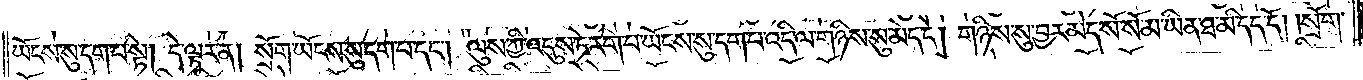ཡོངས་སུ་དག་པ་སྟེ། དེ་ལྟར་ན། སྲོག་ཡོངས་སུ་དག་པ་དང༌། ལུས་ཀྱི་འདུས་ཏེ་རེག་པ་ཡོངས་སུ་དག་པ་འདི་ལ་གཉིས་སུ་མེད་དེ། གཉིས་སུ་བྱར་མེད་སོ་སོ་མ་ཡིན་ཐ་མི་དད་དོ། །སྲོག་
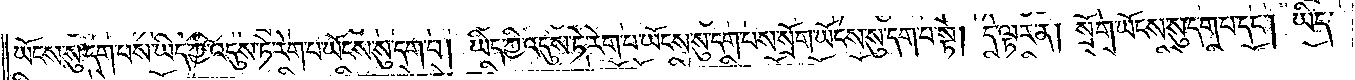ཡོངས་སུ་དག་པས་ཡིད་ཀྱི་འདུས་ཏེ་རེག་པ་ཡོངས་སུ་དག་པ། ཡིད་ཀྱི་འདུས་ཏེ་རེག་པ་ཡོངས་སུ་དག་པས་སྲོག་ཡོངས་སུ་དག་པ་སྟེ། དེ་ལྟར་ན། སྲོག་ཡོངས་སུ་དག་པ་དང༌། ཡིད་
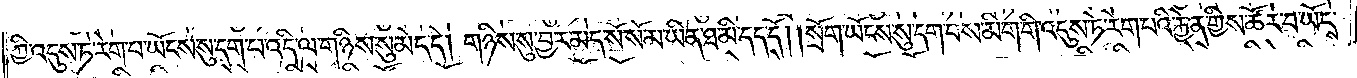ཀྱི་འདུས་ཏེ་རེག་པ་ཡོངས་སུ་དག་པ་འདི་ལ་གཉིས་སུ་མེད་དེ། གཉིས་སུ་བྱར་མེད་སོ་སོ་མ་ཡིན་ཐ་མི་དད་དོ། །སྲོག་ཡོངས་སུ་དག་པས་མིག་གི་འདུས་ཏེ་རེག་པའི་རྐྱེན་གྱིས་ཚོར་བ་ཡོངས་
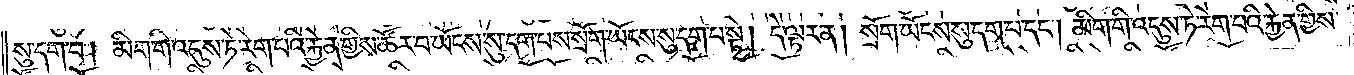སུ་དག་པ། མིག་གི་འདུས་ཏེ་རེག་པའི་རྐྱེན་གྱིས་ཚོར་བ་ཡོངས་སུ་དག་པས་སྲོག་ཡོངས་སུ་དག་པ་སྟེ། དེ་ལྟར་ན། སྲོག་ཡོངས་སུ་དག་པ་དང༌། མིག་གི་འདུས་ཏེ་རེག་པའི་རྐྱེན་གྱིས་
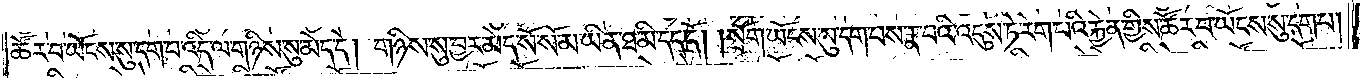ཚོར་བ་ཡོངས་སུ་དག་པ་འདི་ལ་གཉིས་སུ་མེད་དེ། གཉིས་སུ་བྱར་མེད་སོ་སོ་མ་ཡིན་ཐ་མི་དད་དོ། །སྲོག་ཡོངས་སུ་དག་པས་རྣ་བའི་འདུས་ཏེ་རེག་པའི་རྐྱེན་གྱིས་ཚོར་བ་ཡོངས་སུ་དག་པ།
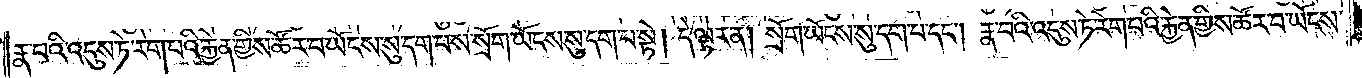རྣ་བའི་འདུས་ཏེ་རེག་པའི་རྐྱེན་གྱིས་ཚོར་བ་ཡོངས་སུ་དག་པས་སྲོག་ཡོངས་སུ་དག་པ་སྟེ། དེ་ལྟར་ན། སྲོག་ཡོངས་སུ་དག་པ་དང༌། རྣ་བའི་འདུས་ཏེ་རེག་པའི་རྐྱེན་གྱིས་ཚོར་བ་ཡོངས་
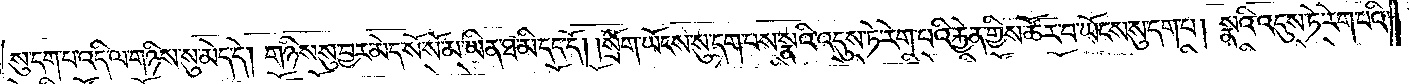སུ་དག་པ་འདི་ལ་གཉིས་སུ་མེད་དེ། གཉིས་སུ་བྱར་མེད་སོ་སོ་མ་ཡིན་ཐ་མི་དད་དོ། །སྲོག་ཡོངས་སུ་དག་པས་སྣའི་འདུས་ཏེ་རེག་པའི་རྐྱེན་གྱིས་ཚོར་བ་ཡོངས་སུ་དག་པ། སྣའི་འདུས་ཏེ་རེག་པའི་
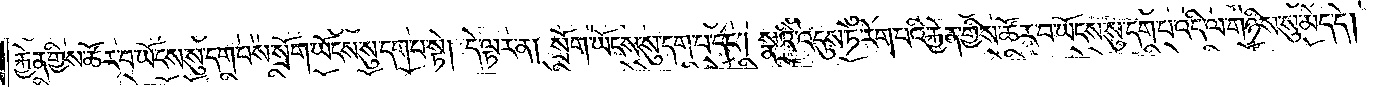རྐྱེན་གྱིས་ཚོར་བ་ཡོངས་སུ་དག་པས་སྲོག་ཡོངས་སུ་དག་པ་སྟེ། དེ་ལྟར་ན། སྲོག་ཡོངས་སུ་དག་པ་དང༌། སྣའི་འདུས་ཏེ་རེག་པའི་རྐྱེན་གྱིས་ཚོར་བ་ཡོངས་སུ་དག་པ་འདི་ལ་གཉིས་སུ་མེད་དེ།
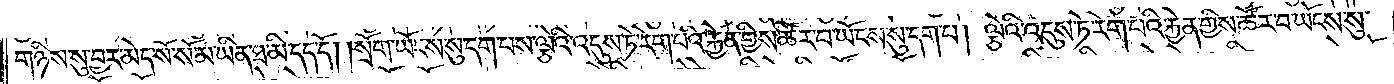གཉིས་སུ་བྱར་མེད་སོ་སོ་མ་ཡིན་ཐ་མི་དད་དོ། །སྲོག་ཡོངས་སུ་དག་པས་ལྕེའི་འདུས་ཏེ་རེག་པའི་རྐྱེན་གྱིས་ཚོར་བ་ཡོངས་སུ་དག་པ། ལྕེའི་འདུས་ཏེ་རེག་པའི་རྐྱེན་གྱིས་ཚོར་བ་ཡོངས་སུ་
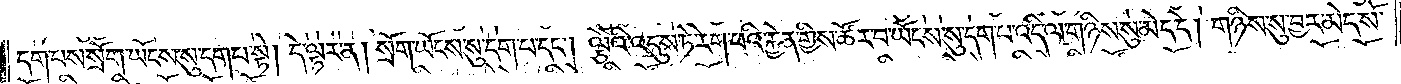དག་པས་སྲོག་ཡོངས་སུ་དག་པ་སྟེ། དེ་ལྟར་ན། སྲོག་ཡོངས་སུ་དག་པ་དང༌། ལྕེའི་འདུས་ཏེ་རེག་པའི་རྐྱེན་གྱིས་ཚོར་བ་ཡོངས་སུ་དག་པ་འདི་ལ་གཉིས་སུ་མེད་དེ། གཉིས་སུ་བྱར་མེད་སོ་
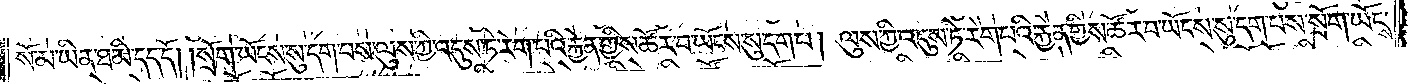སོ་མ་ཡིན་ཐ་མི་དད་དོ། །སྲོག་ཡོངས་སུ་དག་པས་ལུས་ཀྱི་འདུས་ཏེ་རེག་པའི་རྐྱེན་གྱིས་ཚོར་བ་ཡོངས་སུ་དག་པ། ལུས་ཀྱི་འདུས་ཏེ་རེག་པའི་རྐྱེན་གྱིས་ཚོར་བ་ཡོངས་སུ་དག་པས་སྲོག་ཡོངས་
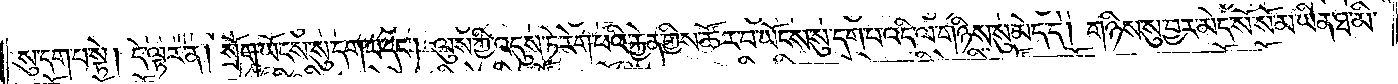སུ་དག་པ་སྟེ། དེ་ལྟར་ན། སྲོག་ཡོངས་སུ་དག་པ་དང༌། ལུས་ཀྱི་འདུས་ཏེ་རེག་པའི་རྐྱེན་གྱིས་ཚོར་བ་ཡོངས་སུ་དག་པ་འདི་ལ་གཉིས་སུ་མེད་དེ། གཉིས་སུ་བྱར་མེད་སོ་སོ་མ་ཡིན་ཐ་མི་
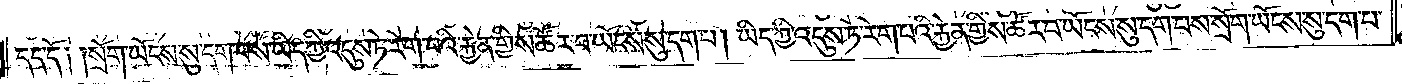དད་དོ། །སྲོག་ཡོངས་སུ་དག་པས་ཡིད་ཀྱི་འདུས་ཏེ་རེག་པའི་རྐྱེན་གྱིས་ཚོར་བ་ཡོངས་སུ་དག་པ། ཡིད་ཀྱི་འདུས་ཏེ་རེག་པའི་རྐྱེན་གྱིས་ཚོར་བ་ཡོངས་སུ་དག་པས་སྲོག་ཡོངས་སུ་དག་པ་
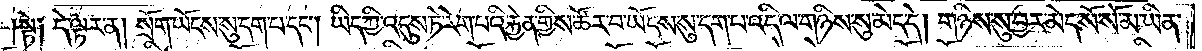སྟེ༑ དེ་ལྟར་ན། སྲོག་ཡོངས་སུ་དག་པ་དང༌། ཡིད་ཀྱི་འདུས་ཏེ་རེག་པའི་རྐྱེན་གྱིས་ཚོར་བ་ཡོངས་སུ་དག་པ་འདི་ལ་གཉིས་སུ་མེད་དེ། གཉིས་སུ་བྱར་མེད་སོ་སོ་མ་ཡིན་
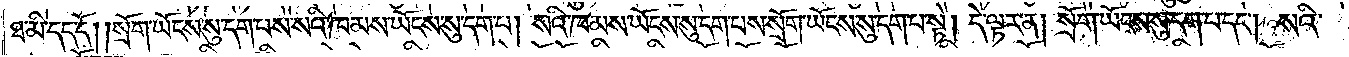ཐ་མི་དད་དོ། །སྲོག་ཡོངས་སུ་དག་པས་སའི་ཁམས་ཡོངས་སུ་དག་པ། སའི་ཁམས་ཡོངས་སུ་དག་པས་སྲོག་ཡོངས་སུ་དག་པ་སྟེ། དེ་ལྟར་ན། སྲོག་ཡོངས་སུ་དག་པ་དང༌། སའི་
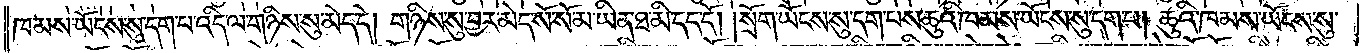ཁམས་ཡོངས་སུ་དག་པ་འདི་ལ་གཉིས་སུ་མེད་དེ། གཉིས་སུ་བྱར་མེད་སོ་སོ་མ་ཡིན་ཐ་མི་དད་དོ། །སྲོག་ཡོངས་སུ་དག་པས་ཆུའི་ཁམས་ཡོངས་སུ་དག་པ། ཆུའི་ཁམས་ཡོངས་སུ་
